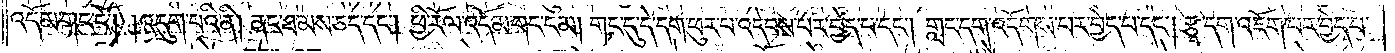འདོམ་གང་ངོ༌། །འདུག་པའི་ནི། ནང་ཐམས་ཅད་དང༌། ཕྱི་རོལ་འདོམ་གང་ངམ། གང་དུ་དེ་དག་ཕུར་པ་འདེབས་པར་བྱེད་པ་དང༌། གླང་དག་འདོགས་པར་བྱེད་པ་དང༌། རྩྭ་དག་འཇོག་པར་བྱེད་པ་
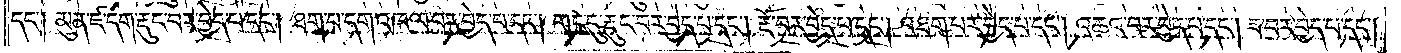དང༌། མུན་ཛ་དག་རྡུང་བར་བྱེད་པ་དང༌། ཐག་པ་དག་འཁལ་བར་བྱེད་པ་དང༌། གང་དུ་རྡུང་བར་བྱེད་པ་དང༌། རྔོ་བར་བྱེད་པ་དང༌། འཐག་པར་བྱེད་པ་དང༌། འཆའ་བར་བྱེད་པ་དང༌། ཟ་བར་བྱེད་པ་དང༌།
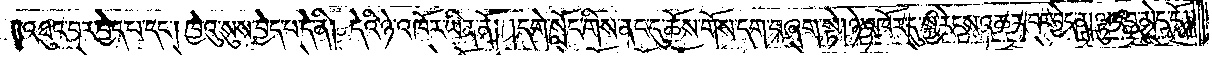འཐུང་བར་བྱེད་པ་དང༌། ཁྱེའུ་སུས་བྱེད་པ་དེ་ནི། དེའི་ཉེ་འཁོར་ཡིན་ནོ། །དགེ་སློང་གིས་ནང་དུ་ཆོས་གོས་དག་བཞག་སྟེ། ཉེ་འཁོར་དུ་སྐྱ་རེངས་འཆར་བར་བྱེད་ན། ལྟུང་བ་མེད་དོ། །
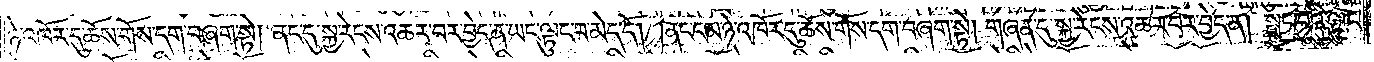ཉེ་འཁོར་དུ་ཆོས་གོས་དག་བཞག་སྟེ། ནང་དུ་སྐྱ་རེངས་འཆར་བར་བྱེད་ན་ཡང་ལྟུང་བ་མེད་དོ། །ནང་ངམ་ཉེ་འཁོར་དུ་ཆོས་གོས་དག་བཞག་སྟེ། གཞན་དུ་སྐྱ་རེངས་འཆར་བར་བྱེད་ན། སྤང་བའི་ལྟུང་
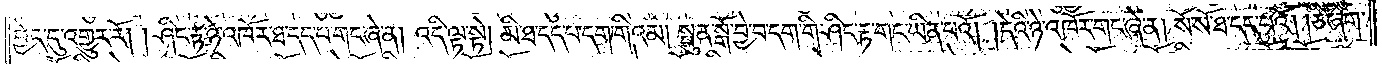བྱེད་དུ་འགྱུར་རོ། །ཤིང་རྟ་ཉེ་འཁོར་ཐ་དད་པ་གང་ཞེ་ན། འདི་ལྟ་སྟེ། མི་ཐ་དད་པ་དག་གིའམ། སྤུན་སྒོ་བྱེ་བ་དག་གི་ཤིང་རྟ་གང་ཡིན་པའོ། །དེའི་ཉེ་འཁོར་གང་ཞེ་ན། སོ་སོ་ཐ་དད་པའོ། །ཅི་ཞིག་
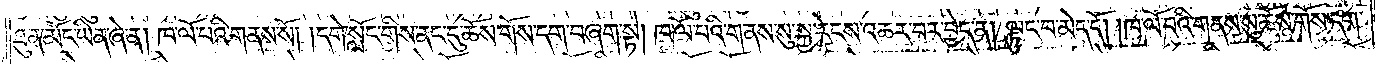ཐུན་མོང་ཡིན་ཞེ་ན། ཁ་ལོ་པའི་གནས་སོ། །དགེ་སློང་གིས་ནང་དུ་ཆོས་གོས་དག་བཞག་སྟེ། ཁ་ལོ་པའི་གནས་སུ་སྐྱ་རེངས་འཆར་བར་བྱེད་ན། ལྟུང་བ་མེད་དོ། །ཁ་ལོ་པའི་གནས་སུ་ཆོས་གོས་དག་
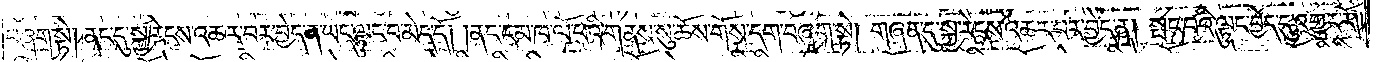བཞག་སྟེ། ནང་དུ་སྐྱ་རེངས་འཆར་བར་བྱེད་ན་ཡང་ལྟུང་བ་མེད་དོ། །ནང་ངམ་ཁ་ལོ་པའི་གནས་སུ་ཆོས་གོས་དག་བཞག་སྟེ། གཞན་དུ་སྐྱ་རེངས་འཆར་བར་བྱེད་ན། སྤང་བའི་ལྟུང་བྱེད་དུ་འགྱུར་རོ། །
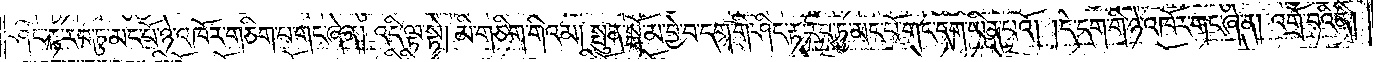ཤིང་རྟ་རབ་ཏུ་མང་པོ་ཉེ་འཁོར་གཅིག་པ་གང་ཞེ་ན། འདི་ལྟ་སྟེ། མི་གཅིག་གིའམ། སྤུན་སྒོ་མ་བྱེ་བ་དག་གི་ཤིང་རྟ་རབ་ཏུ་མང་པོ་གང་དག་ཡིན་པའོ། །དེ་དག་གི་ཉེ་འཁོར་གང་ཞེ་ན། འགྲོ་བའི་ནི།
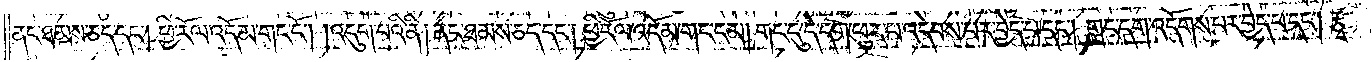ནང་ཐམས་ཅད་དང༌། ཕྱི་རོལ་འདོམ་གང་ངོ༌། །འདུག་པའི་ནི། ནང་ཐམས་ཅད་དང༌། ཕྱི་རོལ་འདོམ་གང་ངམ། གང་དུ་དེ་དག་ཕུར་པ་འདེབས་པར་བྱེད་པ་དང༌། གླང་དག་འདོགས་པར་བྱེད་པ་དང༌། རྩྭ་
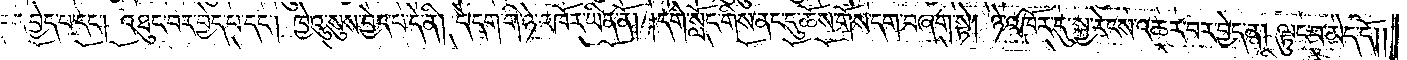བར་བྱེད་པ་དང༌། འཐུང་བར་བྱེད་པ་དང༌། ཁྱེའུ་སུས་བྱེད་པ་དེ་ནི། དེ་དག་གི་ཉེ་འཁོར་ཡིན་ནོ། །དགེ་སློང་གིས་ནང་དུ་ཆོས་གོས་དག་བཞག་སྟེ། ཉེ་འཁོར་དུ་སྐྱ་རེངས་འཆར་བར་བྱེད་ན། ལྟུང་བ་མེད་དོ། །
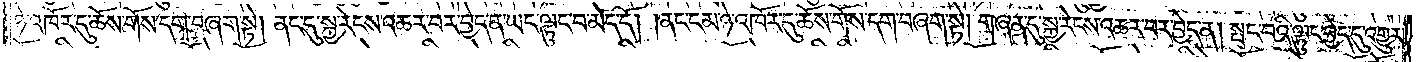ཉེ་འཁོར་དུ་ཆོས་གོས་དག་བཞག་སྟེ། ནང་དུ་སྐྱ་རེངས་འཆར་བར་བྱེད་ན་ཡང་ལྟུང་བ་མེད་དོ། །ནང་ངམ་ཉེ་འཁོར་དུ་ཆོས་གོས་དག་བཞག་སྟེ། གཞན་དུ་སྐྱ་རེངས་འཆར་བར་བྱེད་ན། སྤང་བའི་ལྟུང་བྱེད་དུ་འགྱུར་
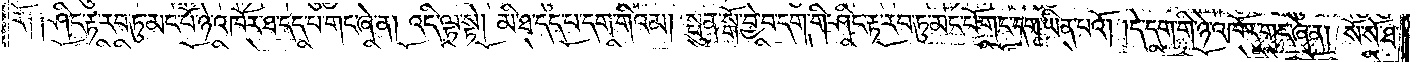རོ༑ ༑ཤིང་རྟ་རབ་ཏུ་མང་པོ་ཉེ་འཁོར་ཐ་དད་པ་གང་ཞེ་ན། འདི་ལྟ་སྟེ། མི་ཐ་དད་པ་དག་གིའམ། སྤུན་སྒོ་བྱེ་བ་དག་གི་ཤིང་རྟ་རབ་ཏུ་མང་པོ་གང་དག་ཡིན་པའོ། །དེ་དག་གི་ཉེ་འཁོར་གང་ཞེ་ན། སོ་སོ་ཐ་
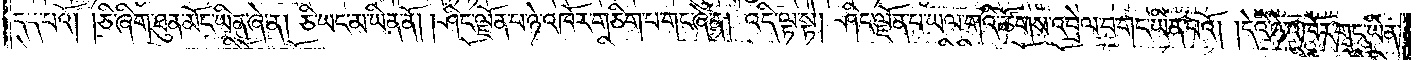དད་པའོ། །ཅི་ཞིག་ཐུན་མོང་ཡིན་ཞེ་ན། ཅི་ཡང་མ་ཡིན་ནོ། །ཤིང་ལྗོན་པ་ཉེ་འཁོར་གཅིག་པ་གང་ཞེ་ན། འདི་ལྟ་སྟེ། ཤིང་ལྗོན་པ་ཡལ་གའི་ཚོགས་འབྲེལ་བ་གང་ཡིན་པའོ། །དེའི་ཉེ་འཁོར་གང་ཡིན་
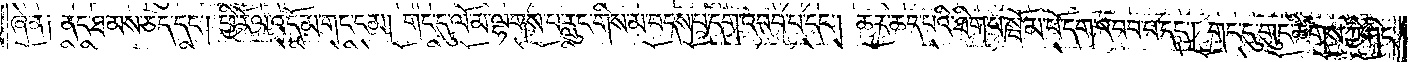ཞེ་ན། ནང་ཐམས་ཅད་དང༌། ཕྱི་རོལ་འདོམ་གང་ངམ། གང་དུ་ལོ་མ་ལྷགས་པ་རླུང་གིས་མ་བདས་པ་དག་འབབ་པ་དང༌། ཆར་ཆད་པའི་ཐིག་པ་སྦོམ་པོ་དག་འབབ་པ་དང༌། གང་དུ་གུང་ཚིགས་ཀྱི་ཤིང་
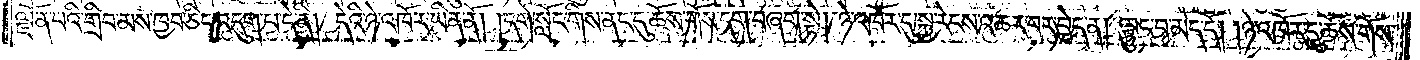ལྗོན་པའི་གྲིབ་མས་ཁྱབ་ཅིང་འདུག་པ་དེ་ནི། དེའི་ཉེ་འཁོར་ཡིན་ནོ། །དགེ་སློང་གིས་ནང་དུ་ཆོས་གོས་དག་བཞག་སྟེ། ཉེ་འཁོར་དུ་སྐྱ་རེངས་འཆར་བར་བྱེད་ན། ལྟུང་བ་མེད་དོ། །ཉེ་འཁོར་དུ་ཆོས་གོས་
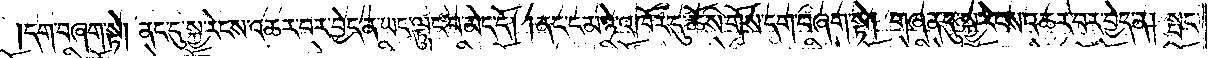དག་བཞག་སྟེ། ནང་དུ་སྐྱ་རེངས་འཆར་བར་བྱེད་ན་ཡང་ལྟུང་བ་མེད་དོ། །ནང་ངམ་ཉེ་འཁོར་དུ་ཆོས་གོས་དག་བཞག་སྟེ། གཞན་དུ་སྐྱ་རེངས་འཆར་བར་བྱེད་ན། སྤང་
